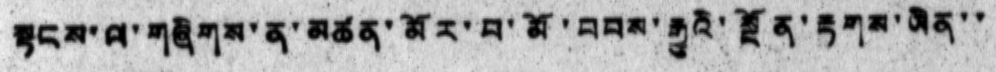སྟངས་ལ་གཞིགས་ན་མཚན་མོར་བ་མོ་བབས་རྒྱུའི་སྔོན་རྟགས་ཡིན་་
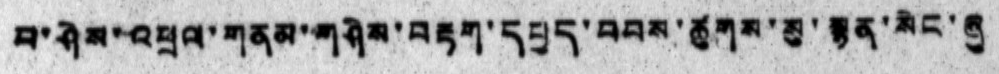པ་ཤེས་འཕྲལ་གནམ་གཤིས་བརྟག་དཔྱད་བབས་ཚུགས་སུ་སྙན་སེང་ཞུ
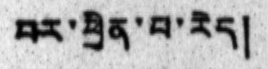བར་ཕྱིན་པ་རེད།
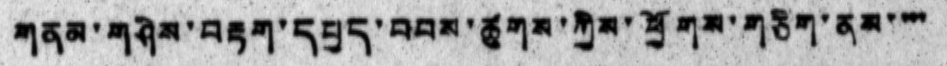གནམ་གཤིས་བརྟག་དཔྱད་བབས་ཚུགས་ཀྱིས་ཕྱོགས་གཅིག་ནས་་་་
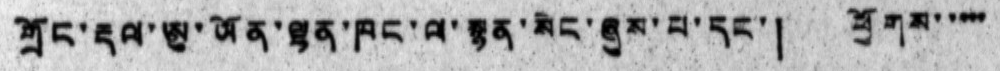གྲོང་རྡལ་ཨུ་ཡོན་ལྷན་ཁང་ལ་སྙན་སེང་ཞུས་པ་དང་། ཕྱོགས་་་་་
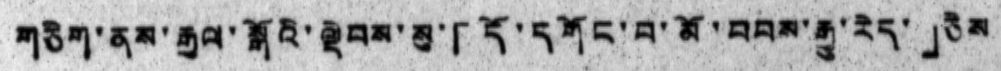གཅིག་ནས་རྒྱལ་སྒོའི་ལྡེབས་སུ་「དོ་དགོང་བ་མོ་བབས་རྒྱུ་རེད་」ཅེས
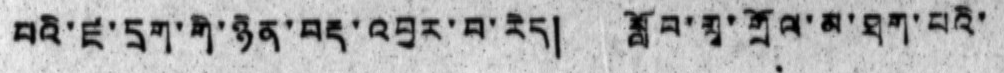པའི་ཛ་དྲག་གི་ཉེན་བརྡ་འབྱར་བ་རེད། སློབ་གྲྭ་གྲོལ་མ་ཐག་པའི་
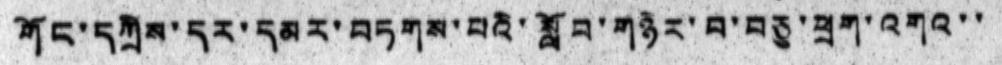གོང་དཀྲིས་དར་དམར་བཏགས་པའི་སློབ་གཉེར་བ་བཅུ་ཕྲག་འགའ་་
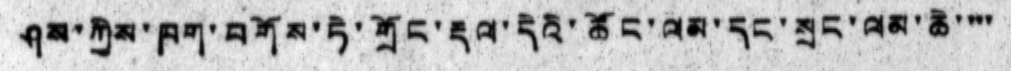ཤས་ཀྱིས་ཁག་བགོས་ཏེ་གྲོང་རྡལ་དེའི་ཚོང་ལམ་དང་སྲང་ལམ་ཆེ་་་་
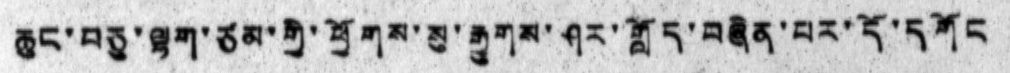ཆུང་བཅུ་ལྷག་ཙམ་གྱི་ཕྱོགས་སུ་རྒྱུགས་ཤར་གློད་བཞིན་པར་དོ་དགོང
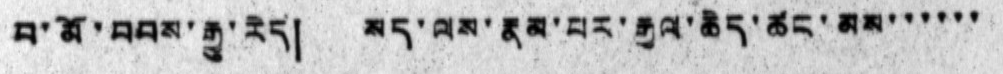བ་མོ་བབས་རྒྱུ་རེད། སད་ལས་རྣམ་པར་རྒྱལ་ཆེད་ཚང་མས་་་་་་
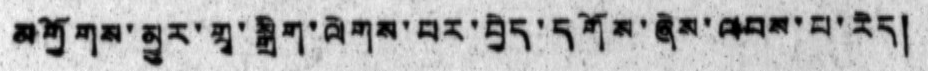མགྱོགས་མྱུར་གྲྭ་སྒྲིག་ལེགས་པར་བྱེད་དགོས་ཞེས་ལབས་པ་རེད།
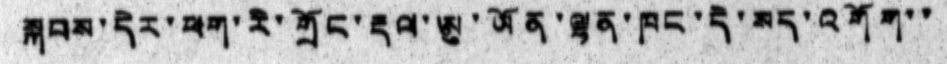སྐབས་དེར་ཕག་རི་གྲོང་རྡལ་ཨུ་ཡོན་ལྷན་ཁང་དེ་སད་འགོག་་
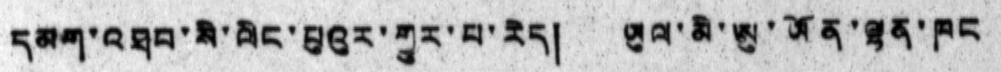དམག་འཐབ་སི་ལིང་པུའུར་གྱུར་པ་རེད། ཡུལ་མི་ཨུ་ཡོན་ལྷན་ཁང
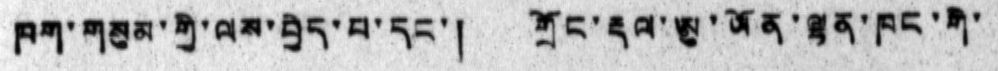ཁག་གསུམ་གྱི་ལས་བྱེད་པ་དང་། གྲོང་རྡལ་ཨུ་ཡོན་ལྷན་ཁང་གི་
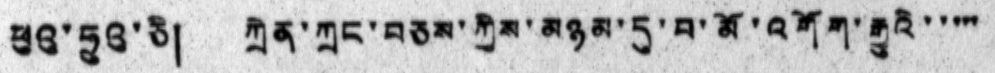ཕུའུ་ཧྲུའུ་ཅི། ཀྲེན་ཀྲང་བཅས་ཀྱིས་མཉམ་དུ་བ་མོ་འགོག་རྒྱུའི་་་་་
